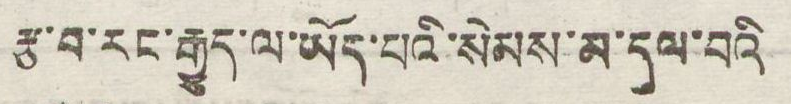རྩ་བ་རང་རྒྱུད་ལ་ཡོད་པའི་སེམས་མ་དལ་བའི
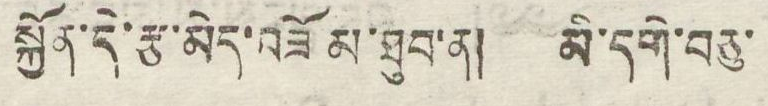སྐྱོན་དེ་རྩ་མེད་བཟོམ་ཐུབ་ན། མི་དགེ་བཅུ་
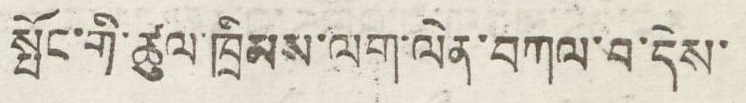སྤོང་གི་ཚུལ་ཁྲིམས་ལག་ལེན་བཀལ་བ་དེས་
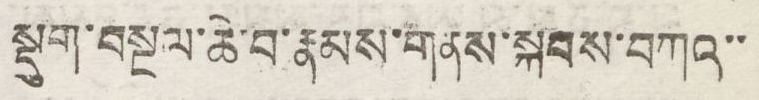སྡུག་བསྔལ་ཆེ་བ་རྣམས་གནས་སྐབས་བཀའ་་
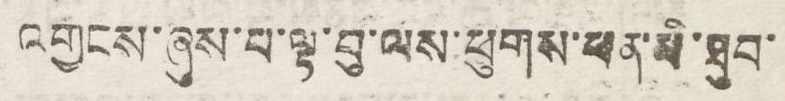འགྱངས་ཞུས་པ་ལྟ་བུ་ལས་ཕུགས་ཕན་མི་ཐུབ་
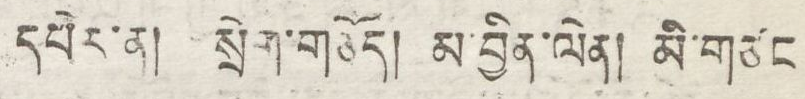དཔེར་ན། སྲེག་གཅོད། མ་བྱིན་ལེན། མི་གཙང
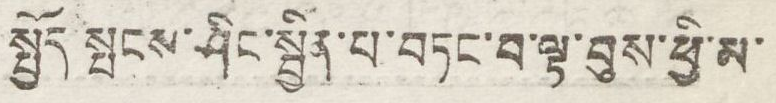སྤྱོད སྤངས་ཤིང་སྦྱིན་པ་བཏང་བ་ལྟ་བུས་ཕྱི་མ་
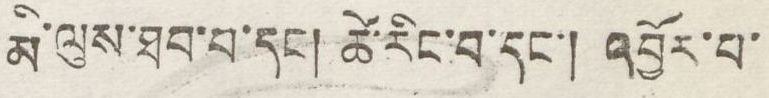མི་ལུས་ཐུབ་པ་དང། ཚེ་རིང་བ་དང་། འབྱོར་བ་
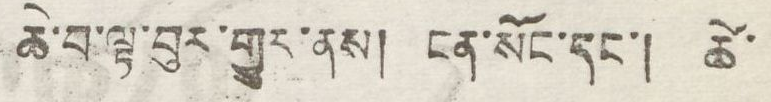ཆེ་བ་ལྟ་བུར་གྱུར་ནས། ངན་སོང་དང་། ཚེ་
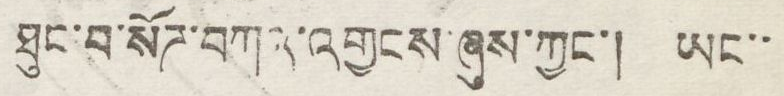ཐུང་བ་སོཌ་བཀའ་འགྱངས་ཞུས་ཀྱང་། ཡང་་
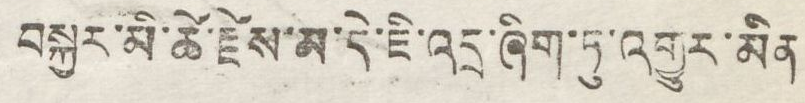བསྐྱར་མི་ཚེ་རྗེས་མ་དེ་ཇི་འདྲ་ཞིག་ཏུ་འགྱུར་མིན
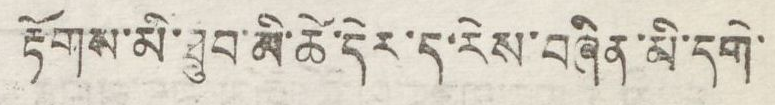རྟོགས་མི་ཐུབ་མི་ཚེ་དེར་ད་རེས་བཞིན་མི་དགེ་
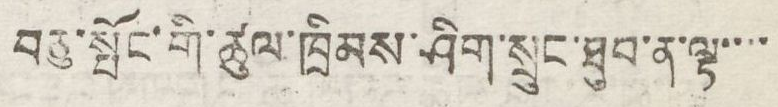བཅུ་སྤོང་གི་ཚུལ་ཁྲིམས་ཤིག་སྲུང་ཐུབ་ན་ལྟ་་་་
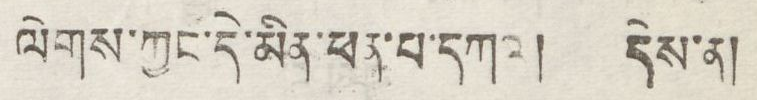ལེགས་ཀྱང་དེ་མིན་ཕན་པ་དཀའ། དེས་ན།
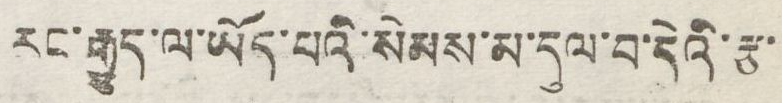རང་རྒྱུད་ལ་ཡོད་པའི་སེམས་མ་དུལ་བ་དེའི་རྩ་
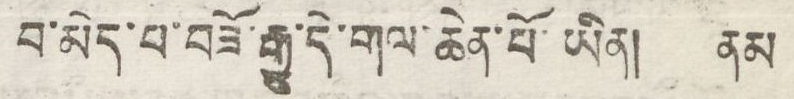བ་མེད་པ་བཟོ་རྒྱུ་དེ་གལ་ཆེན་པོ་ཡིན། ནམ
